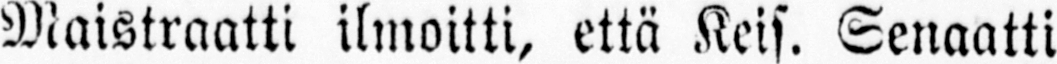Maistraatti ilmoitti, että Keis. Senaatti
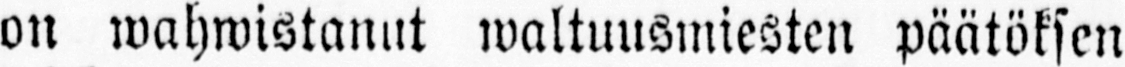on wahwistanut päätöksen
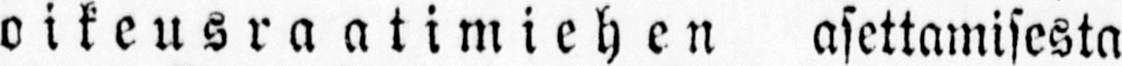oikeusraatimiehen asettamisesta
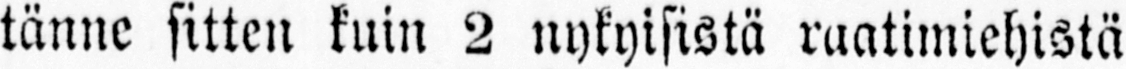tänne sitten kuin 2 nykyisistä raatimiehistä
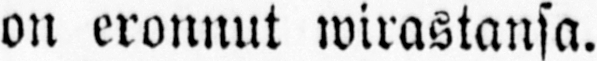on eronnut wirastansa.
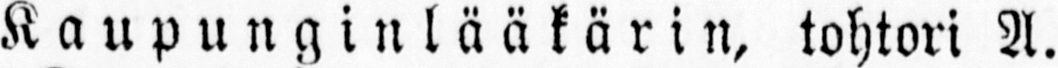Kaupunginlääkärin, tohtori A.
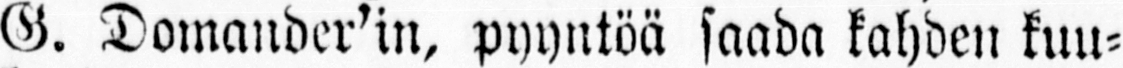G. Domander'in, pyyntöä saada kahden kuu-
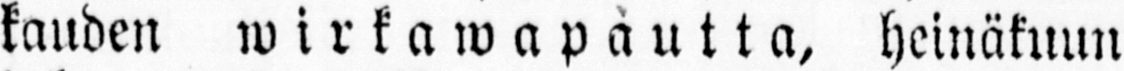kauden wirkawapautta, heinäkuun
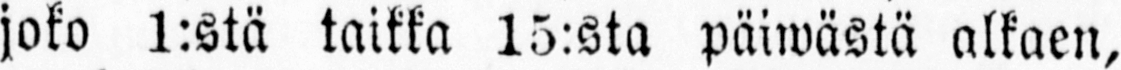joko 1:stä taikka 15:sta päiwästä alkaen,
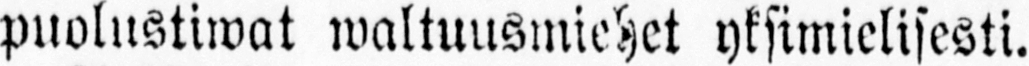puolustiwat waltuusmiehet yksimielisesti.
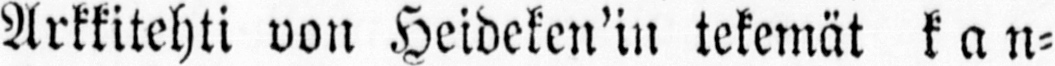Arkkitehti von Heideken'in tekemät kan-
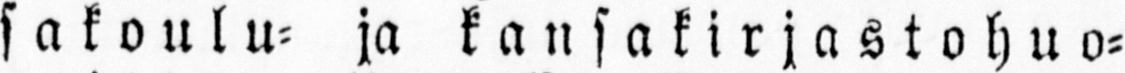sakoulu- ja kansakirjastohuo-
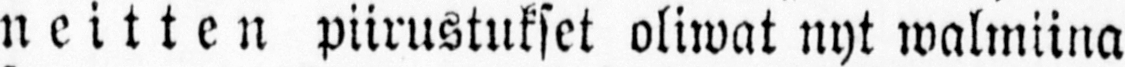neitten piirustukset oliwat nyt walmiina
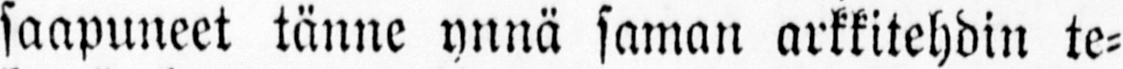saapuneet tänne ynnä saman arkkitehdin te-
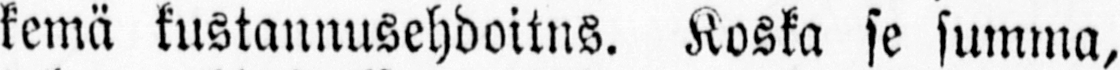kemä kustannusehdoitns. Koska se summa,
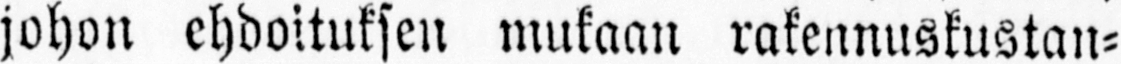johon ehdoituksen mukaan rakennuskustan-
